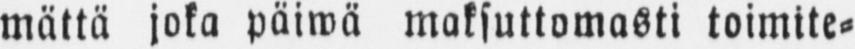mättä joka päiwä maksuttomasti toimite-
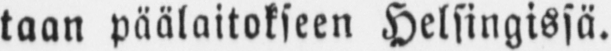taan päälaitokseen Helsingissä.
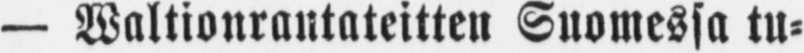— Waltionrantateitten Suomessa tu-
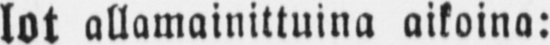lot allamainiltuina aikoina:
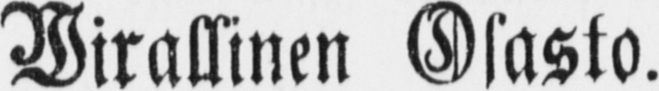Wirallinen Osasto.
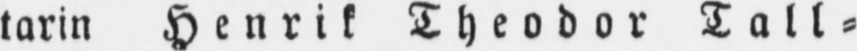tarin Henrik Theodor Tall-
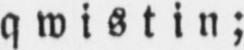qwistin;
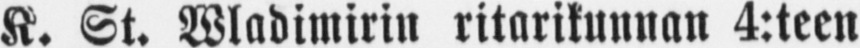K. St. Wladimirin ritarikunnan 4:teen
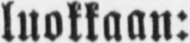luokkaan:
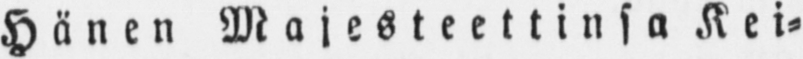Hänen Majesteettinsa Kei-
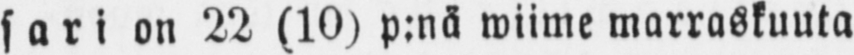sari on 22 (10) p:nä wiime marraskuuta
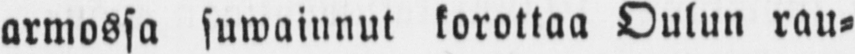armossa suwainnut korottaa Oulun rau-
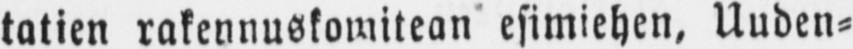tatien rakennuskomitean esimiehen, Uuden-
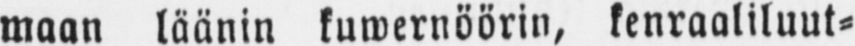maan läänin kuwernöörin, kenraaliluut-
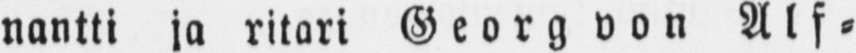nantti ja ritari Georg von Alf-
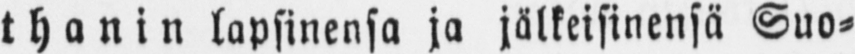thanin lapsinensa ja jälkeisinensä Suo-
